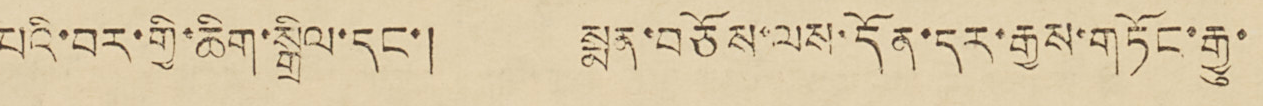པའི་བར་གྱི་ཆིག་སྒྲིལ་དང་། སྨན་བཅོས་ལས་དོན་དར་རྒྱས་གཏོང་རྒྱུ་
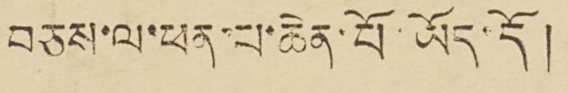བཅས་ལ་ཕན་པ་ཆེན་པོ་ཡོད་དོ།
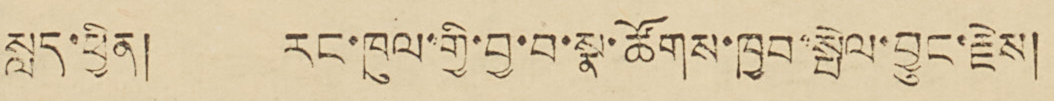སླད་ཕྱིན། རང་ཁུལ་གྱི་བྱ་བ་སྣ་ཚོགས་ཁྱབ་སྤེལ་བྱུང་རྗེས།
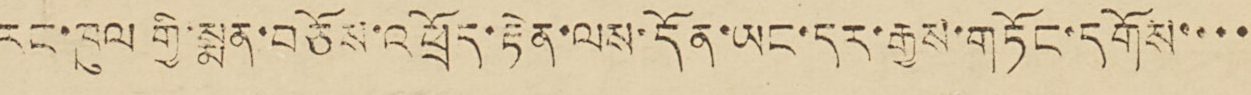རང་ཁུལ གྱི་སྨན་བཅོས་འཕྲོད་རྟེན་ལས་དོན་ཡང་དར་རྒྱས་གཏོང་དགོས་་་་
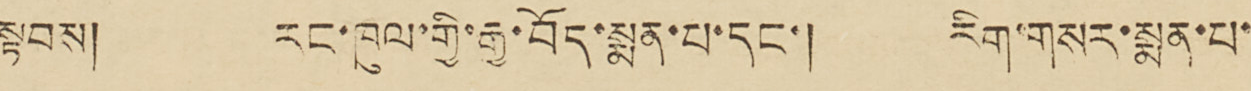སྟབས། རང་ཁུལ་གྱི་རྒྱ་བོད་སྨན་པ་དང་། རིག་གསར་སྨན་པ་
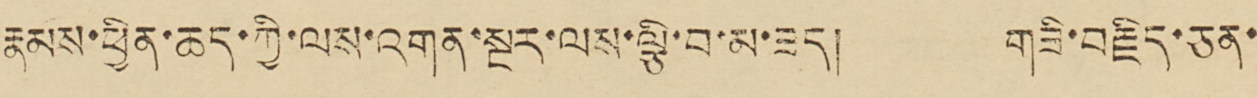རྣམས་ཕྱིན་ཆད་ཀྱི་ལས་འགན་སྔར་ལས་ལྕི་བ་མ་ཟད། གཟི་བརྗིད་ཅན་
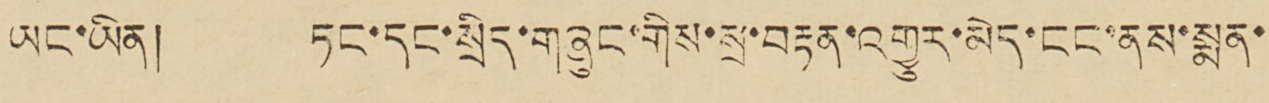ཡང་ཡིན། ཏང་དང་སྲིད་གཞུང་གིས་སྲ་བརྟན་འགྱུར་མེད་ངང་ནས་སྨན་
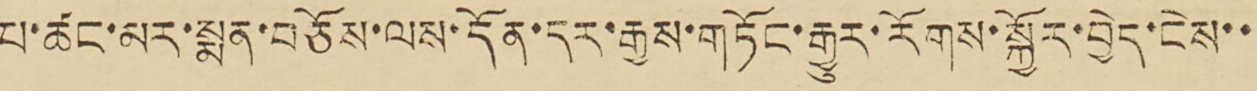པ་ཚང་མར་སྨན་བཅོས་ལས་དོན་དར་རྒྱས་གཏོང་རྒྱུར་རོགས་སྐྱོར་བྱེད་ངེས་་
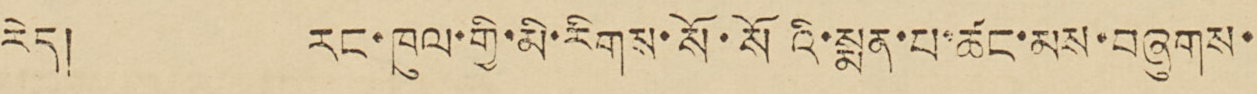རེད། རང་ཁུལ་གྱི་མི་རིགས་སོ་སོའི་སྨན་པ་ཚང་མས་བཞུགས་
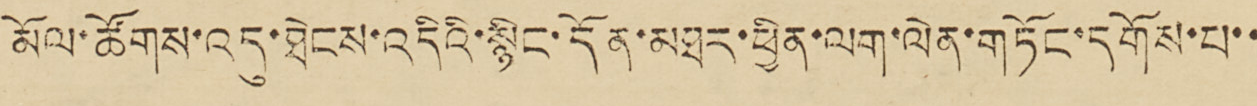མོལ་ཚོགས་འདུ་ཐེངས་འདིའི་སྙིང་དོན་མཐར་ཕྱིན་ལག་ལེན་གཏོང་དགོས་པ་་
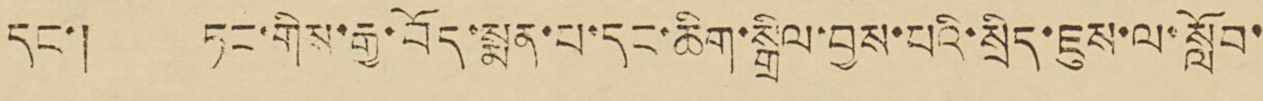དང་། ཏང་གིས་རྒྱ་བོད་སྨན་པ་དང་ཆིག་སྒྲིལ་བྱས་པའི་སྲིད་ཇུས་ལ་སློབ་
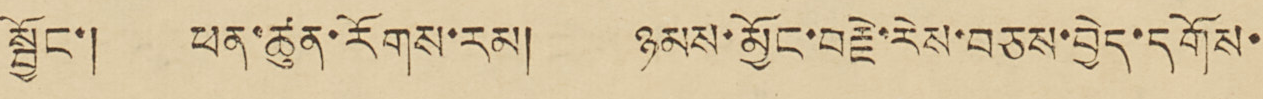སྦྱོང་། ཕན་ཚུན་རིགས་རམ། ཉམས་མྱོང་བརྗེ་རེས་བཅས་བྱེད་དགོས་
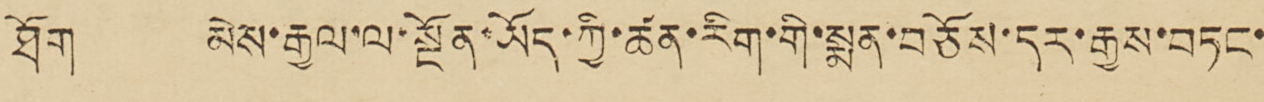ཐོག མེས་རྒྱལ་ལ་སྔོན་ཡོད་ཀྱི་ཚན་རིག་གི་སྨན་བཅོས་དར་རྒྱས་བཏང་
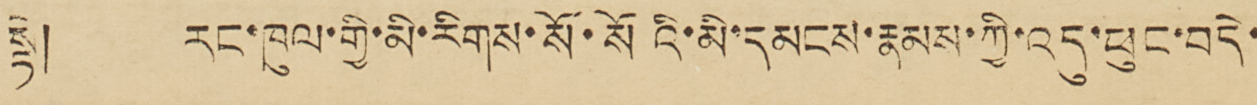སྟེ། རང་ཁུལ་གྱི་མི་རིགས་སོ་སོའི་མི་དམངས་རྣམས་ཀྱི་འདུ་ཕུང་བདེ་
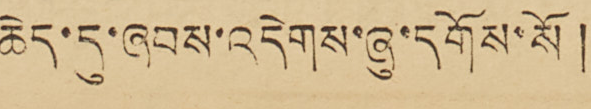ཆེད་དུ་ཞབས་བདེགས་ཞུ་དགོས་སོ །
